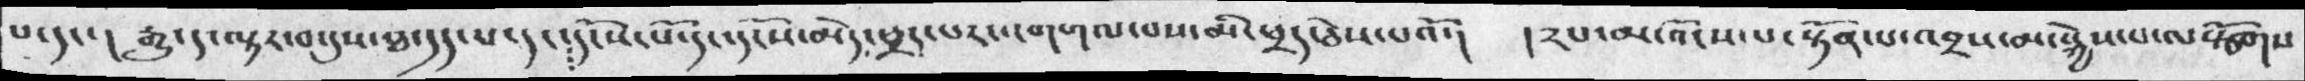པ་དང་། རྒྱུ་ད་ལྟར་བ་དུས་ཐ་དད་པ་དང་དངོས་པོ་དང་དངོས་མེད་ཕྲད་པར་འགག་པ་བས་མི་ཕྲད་ཅེས་པའོ་། །༢པ་མ་འོངས་པ་སྟོན་པ་འབྲས་མ་སྐྱེས་པ་ལསྩོགས
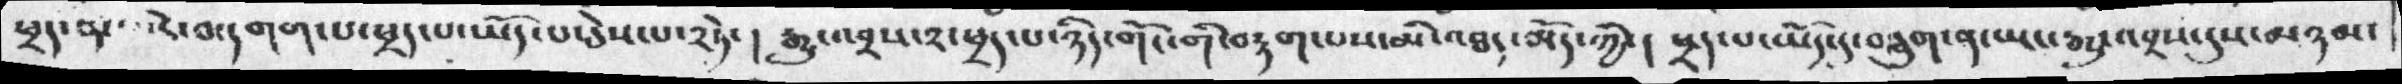ཕྲད་ན་དེ་བ་དགག་པ་ཕྲད་པ་ཡོད་པ་ཅེས་པ་༢ཏེ་།  རྒྱུ་འབྲས་༢་ཕྲད་པ་ཉིད་གོང་གི་བརྟག་པས་མི་འཐད་མོད་ཀྱི་།  ཕྲད་པ་ཡོད་དུ་བཅུག་ན་ཡང་རྒྱུ་འབྲས་དུས་མཉམ་
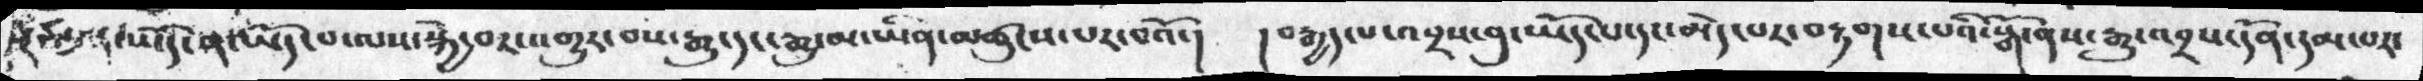ཡོད་ན་ཡོད་བ་ལས་སྐྱེ་བར་འགྱུར་བས་རྒྱུ་དང་རྒྱུ་མ་ཡིན་མཚུངས་པར་བའོ་།  །བརྒྱད་པ་འབྲས་བུ་ཡོད་པ་དང་མེད་པར་བརྟགས་པའི་སྒོ་ནས་རྒྱུ་འབྲས་དོན་དམ་པར་
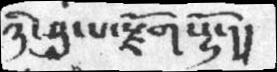ཉི་ཤུ་པ་རྫོགསྷོ་།།
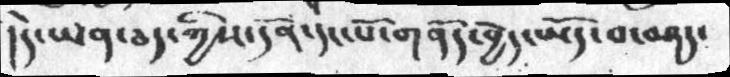།དེ་ཡན་ཅད་ཀྱིས་དོན་དང་པོ་གནོད་བྱེད་ཡོད་བ་བཤད་
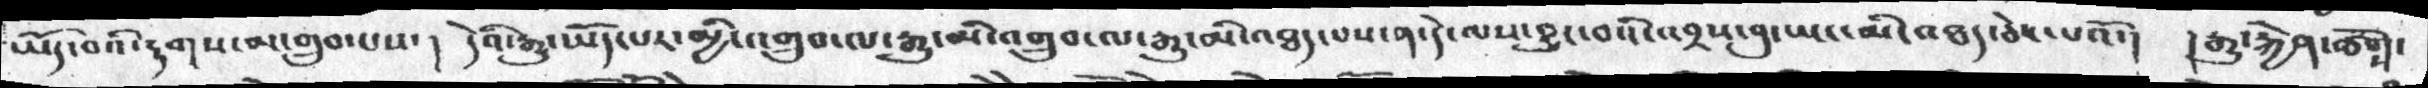ཡོད་བའི་རྟགས་མ་གྲུབ་པས་།  དེའི་རྒྱུ་ཡོད་པར་མྱི་འགྲུབ་ལ་རྒྱུ་མི་འགྲུབ་ལ་རྒྱུ་མ་འཐད་པས་ན་དེ་ལས་བྱུང་བའི་འབྲས་བུ་ཡང་མི་འཐད་ཅེས་པའོ་།  །རྒྱུ་རྐྱེན་ཚོགས་
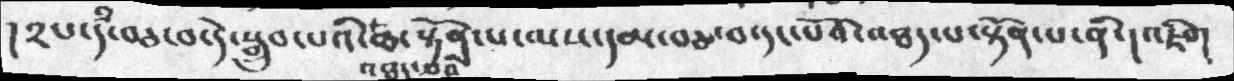།༢པ་དཾ་བཅ་བ་དེ་སྒྲུབ་པའི་འཐད་བའི་ཐ་སྟོན་པ་ལས་དམ་མཅ་བ་དང་པོའི་འཐད་པ་སྟོན་པ་ནི་། འཇིག
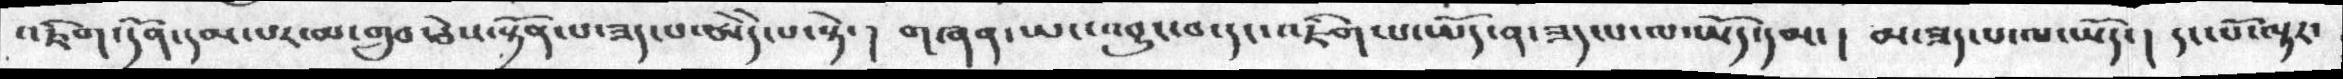འཇིག་དོན་དམ་པར་མ་གྲུབ་ཅེས་སྟོན་པ་ཟད་པ་ཨེདེ་པ་སྟེ་།  གཞན་ཡང་འབྱུང་བ་དང་འཇིག་པ་ཡོད་ན་ཟད་པ་ལ་ཡོད་དམ་།  མ་ཟད་པ་ལ་ཡོད་། དང་པོ་ལྟར་
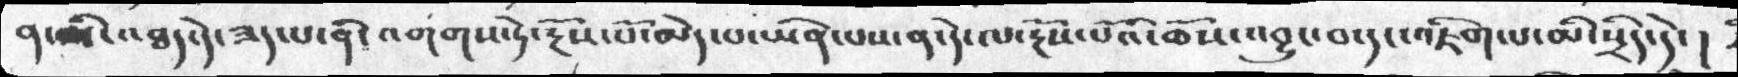ན་མི་འཐད་དེ་ཟད་པ་ནི་འགགས་ཏེ་རྔོས་པོ་མེད་པ་ཡིན་པས་ན་དེ་ལ་རྔོས་པའོ་ཆོས་འབྱུང་བ་དང་འཇིག་པ་མི་སྲིད་དེ་།
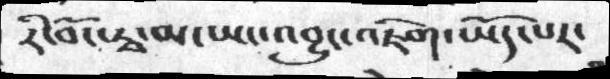རི་བོང་རྭ་མ་ཡང་འབྱུང་འཇིག་ཡོད་པར་
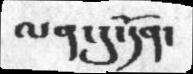ལན་དུ་དོན་
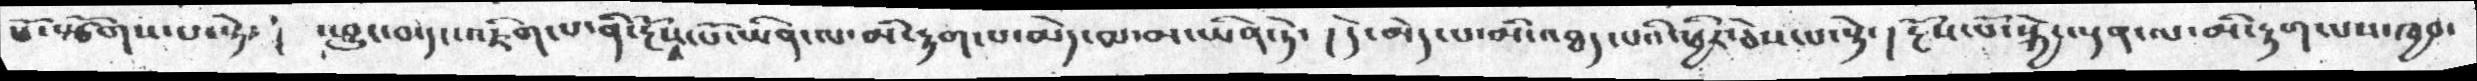པ་སྩོགས་པ་སྟེ་།  ཕྱུང་བ་དང་འཇིག་པ་ནི་རྔོས་པོ་ཡིན་ལ་མི་རྟག་པ་མེད་ལ་མ་ཡིན་ཏེ་  །དེ་མེད་པ་མི་འཐད་པའི་ཕྱིར་ཅེས་པ་སྟེ་།  རྔོས་པོ་སྐྱེ་ལྡན་ལ་མི་རྟག་པས་ཁྱབ་
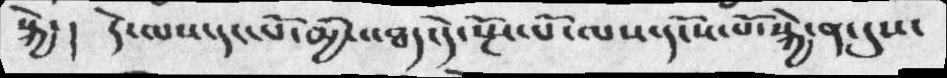སྐྱེ་། དེ་ལས་དང་པོ་མྱི་འཐད་དེ་རྔོས་པོ་ལས་དངོས་པོ་སྐྱེ་ན་དུས་
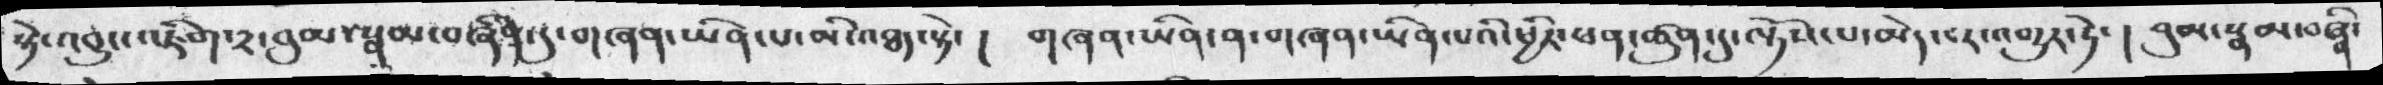སྟེ་འབྱུང་འཇིག་༢་བུམ་སྣུམ་བཞིན་དུ་གཞན་ཡིན་པ་མི་འཐད་སྟེ་།  གཞན་ཡིན་ན་གཞན་ཡིན་པའི་ཕྱིར་ཕན་ཚུན་དུ་ལྟོས་པ་མེད་པར་འགྱུར་ཏེ་།  བུམ་སྣམ་བཞིན་
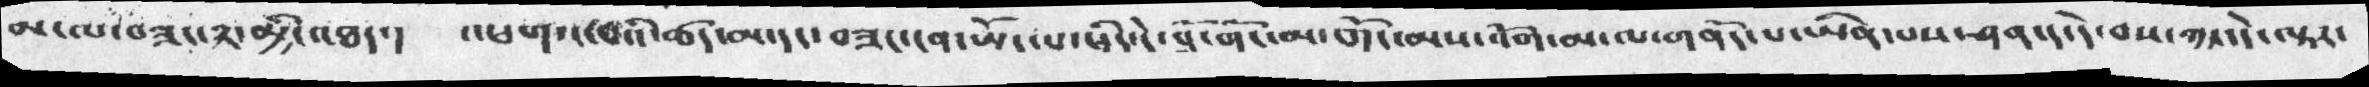མ་ལ་བཟང་༢་་མྱིང་འཐད་།  འཕགས་པའི་ཚད་མ་དང་བཟང་ངན་ཡོད་པ་ཕྱིད་དེ་་བློ་གོང་མ་གོང་མས་འོག་མ་ལ་གནོད་པ་ཡིན་པས་ཤན་ད་དེ་བས་ཀྱང་དེ་ལྟར་
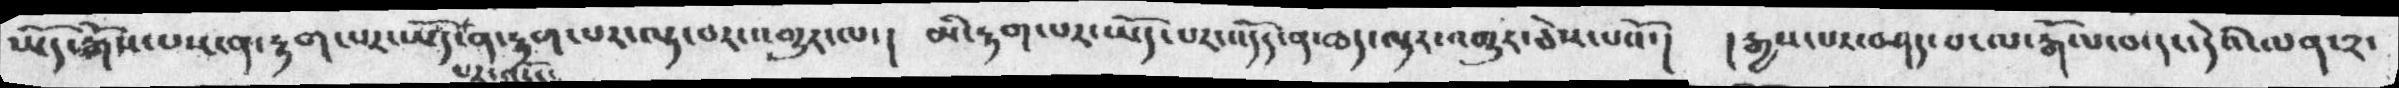ཡོད་རྒོས་པས་ན་རྟག་པར་ཡོད་ན་རྟག་པར་ལྟ་བར་འགྱུར་ལ་། མི་རྟག་པར་ཡོད་པར་འདོད་ན་ཆད་ལྟར་འགྱུར་ཅེས་པའོ་།  ། རྒྱས་པར་བཤད་པ་ལ་རྒོལ་བ་དང་དེའི་ལན་༢་
